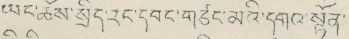ཡང་ཆོས་སྲིད་རང་དབང་གཙང་མའི་དགའ་སྟོན་
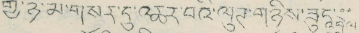གྱི་ཉིམ་གསར་དུ་མཆར་བའི་ལུཊ་གཉིས་ཟུང་བ
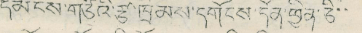དམངས་གཙོའི་རྩ་ཁྲིམས་དགོངས་དོན་ཕྱིན་ཅི་་
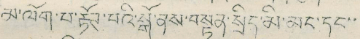མ་ལོག་པ་རྟོཊ་པའི་སྒོ་ནས་བསྟན་སྲིད་མི་མང་དང་་
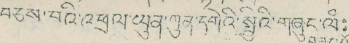བཅས་པའི་འཕྲལ་ཡུན་ཀུན་དགེའི་སྤྱིའི་གཞུང་ལཾ
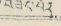བཟང་པོར
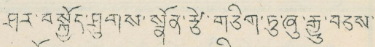ཤར་བསྐྱོད་ཤུགས་སྣོན་རྩེ་གཅིག་ཏུ་ཞུ་རྒྱུ་བཅས་
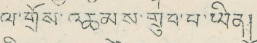ལ་གྲོས་འཆམས་གྲུབ་པ་ཡིན།
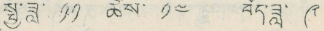སྤྱི་ཟླ་ ༡༡ ཚེས་ ༡༤ བོད་ཟླ་ ༩
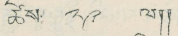ཚེས ༢༩ ལ།།
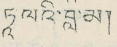ཏཱ་ལའི་བླ་མ།
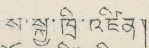ས་སྐྱ་ཁྲི་འཛིན།
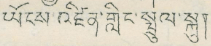ཡོངས་འཛིན་གླིང་སྤྲུལ་སྐུ།
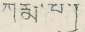ཀརྨ་པ་།
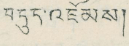བདུད་འཇམས།
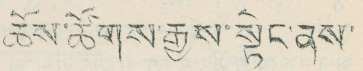ཆོས་ཚོགས་རྒྱས་སྟེང་ནས་
